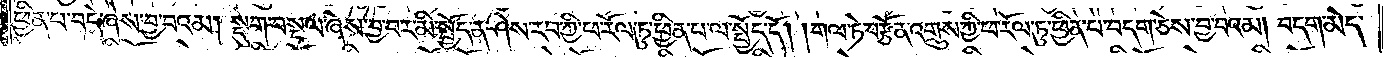ཕྱིན་པ་བདེ་ཞེས་བྱ་བའམ། སྡུག་བསྔལ་ཞེས་བྱ་བར་མི་སྤྱོད་ན་ཤེས་རབ་ཀྱི་ཕ་རོལ་ཏུ་ཕྱིན་པ་ལ་སྤྱོད་དོ། །གལ་ཏེ་བརྩོན་འགྲུས་ཀྱི་ཕ་རོལ་ཏུ་ཕྱིན་པ་བདག་ཅེས་བྱ་བའམ། བདག་མེད་
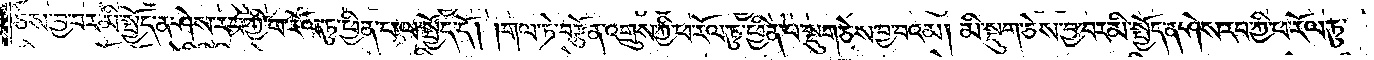ཅེས་བྱ་བར་མི་སྤྱོད་ན་ཤེས་རབ་ཀྱི་ཕ་རོལ་ཏུ་ཕྱིན་པ་ལ་སྤྱོད་དོ། །གལ་ཏེ་བརྩོན་འགྲུས་ཀྱི་ཕ་རོལ་ཏུ་ཕྱིན་པ་སྡུག་ཅེས་བྱ་བའམ། མི་སྡུག་ཅེས་བྱ་བར་མི་སྤྱོད་ན་ཤེས་རབ་ཀྱི་ཕ་རོལ་ཏུ་
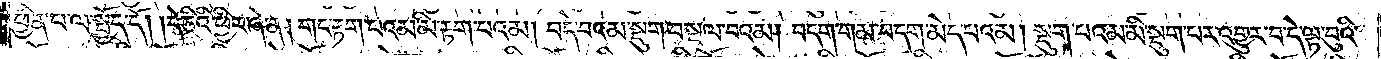ཕྱིན་པ་ལ་སྤྱོད་དོ། །དེ་ཅིའི་ཕྱིར་ཞེ་ན། གང་རྟག་པའམ་མི་རྟག་པའམ། བདེ་བའམ་སྡུག་བསྔལ་བའམ། བདག་གམ་བདག་མེད་པའམ། སྡུག་པའམ་མི་སྡུག་པར་འགྱུར་བ་དེ་ལྟ་བུའི་
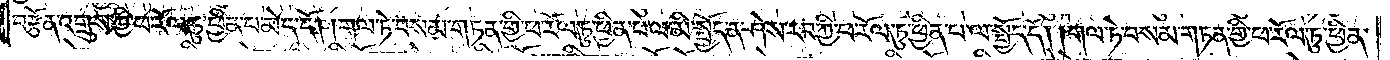བརྩོན་འགྲུས་ཀྱི་ཕ་རོལ་ཏུ་ཕྱིན་པ་མེད་དོ། །གལ་ཏེ་བསམ་གཏན་གྱི་ཕ་རོལ་ཏུ་ཕྱིན་པ་ལ་མི་སྤྱོད་ན་ཤེས་རབ་ཀྱི་ཕ་རོལ་ཏུ་ཕྱིན་པ་ལ་སྤྱོད་དོ། །གལ་ཏེ་བསམ་གཏན་གྱི་ཕ་རོལ་ཏུ་ཕྱིན་
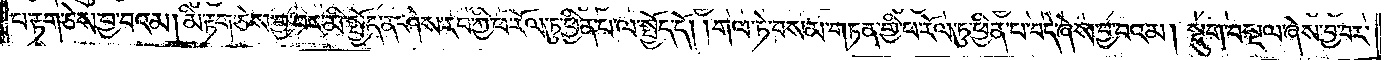པ་རྟག་ཅེས་བྱ་བའམ། མི་རྟག་ཅེས་བྱ་བར་མི་སྤྱོད་ན་ཤེས་རབ་ཀྱི་ཕ་རོལ་ཏུ་ཕྱིན་པ་ལ་སྤྱོད་དོ། །གལ་ཏེ་བསམ་གཏན་གྱི་ཕ་རོལ་ཏུ་ཕྱིན་པ་བདེ་ཞེས་བྱ་བའམ། སྡུག་བསྔལ་ཞེས་བྱ་བར་
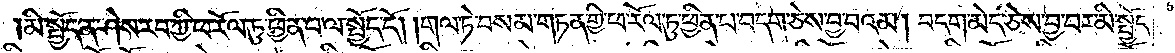མི་སྤྱོད་ན་ཤེས་རབ་ཀྱི་ཕ་རོལ་ཏུ་ཕྱིན་པ་ལ་སྤྱོད་དོ། །གལ་ཏེ་བསམ་གཏན་གྱི་ཕ་རོལ་ཏུ་ཕྱིན་པ་བདག་ཅེས་བྱ་བའམ། བདག་མེད་ཅེས་བྱ་བར་མི་སྤྱོད་
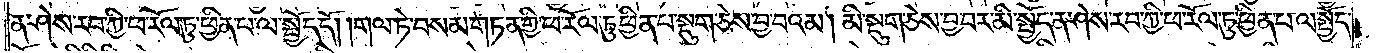ན་ཤེས་རབ་ཀྱི་ཕ་རོལ་ཏུ་ཕྱིན་པ་ལ་སྤྱོད་དོ། །གལ་ཏེ་བསམ་གཏན་གྱི་ཕ་རོལ་ཏུ་ཕྱིན་པ་སྡུག་ཅེས་བྱ་བའམ། མི་སྡུག་ཅེས་བྱ་བར་མི་སྤྱོད་ན་ཤེས་རབ་ཀྱི་ཕ་རོལ་ཏུ་ཕྱིན་པ་ལ་སྤྱོད་
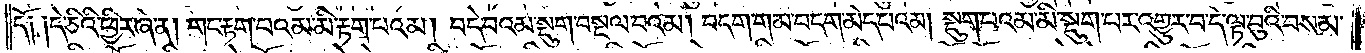དོ༑ ༑དེ་ཅིའི་ཕྱིར་ཞེ་ན། གང་རྟག་པའམ་མི་རྟག་པའམ། བདེ་བའམ་སྡུག་བསྔལ་བའམ། བདག་གམ་བདག་མེད་པའམ། སྡུག་པའམ་མི་སྡུག་པར་འགྱུར་བ་དེ་ལྟ་བུའི་བསམ་
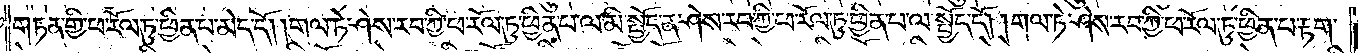གཏན་གྱི་ཕ་རོལ་ཏུ་ཕྱིན་པ་མེད་དོ། །གལ་ཏེ་ཤེས་རབ་ཀྱི་ཕ་རོལ་ཏུ་ཕྱིན་པ་ལ་མི་སྤྱོད་ན་ཤེས་རབ་ཀྱི་ཕ་རོལ་ཏུ་ཕྱིན་པ་ལ་སྤྱོད་དོ། །གལ་ཏེ་ཤེས་རབ་ཀྱི་ཕ་རོལ་ཏུ་ཕྱིན་པ་རྟག་
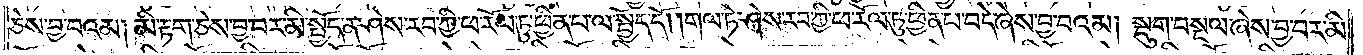ཅེས་བྱ་བའམ། མི་རྟག་ཅེས་བྱ་བར་མི་སྤྱོད་ན་ཤེས་རབ་ཀྱི་ཕ་རོལ་ཏུ་ཕྱིན་པ་ལ་སྤྱོད་དོ། །གལ་ཏེ་ཤེས་རབ་ཀྱི་ཕ་རོལ་ཏུ་ཕྱིན་པ་བདེ་ཞེས་བྱ་བའམ། སྡུག་བསྔལ་ཞེས་བྱ་བར་མི་
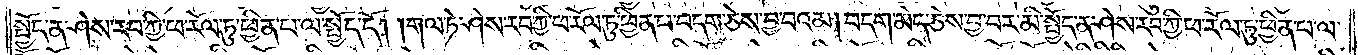སྤྱོད་ན་ཤེས་རབ་ཀྱི་ཕ་རོལ་ཏུ་ཕྱིན་པ་ལ་སྤྱོད་དོ། །གལ་ཏེ་ཤེས་རབ་ཀྱི་ཕ་རོལ་ཏུ་ཕྱིན་པ་བདག་ཅེས་བྱ་བའམ། བདག་མེད་ཅེས་བྱ་བར་མི་སྤྱོད་ན་ཤེས་རབ་ཀྱི་ཕ་རོལ་ཏུ་ཕྱིན་པ་ལ་
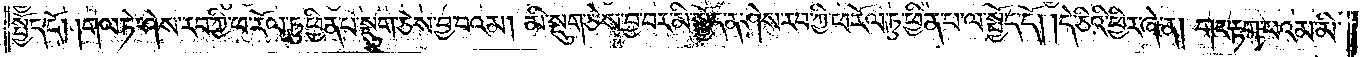སྤྱོད་དོ། །གལ་ཏེ་ཤེས་རབ་ཀྱི་ཕ་རོལ་ཏུ་ཕྱིན་པ་སྡུག་ཅེས་བྱ་བའམ། མི་སྡུག་ཅེས་བྱ་བར་མི་སྤྱོད་ན་ཤེས་རབ་ཀྱི་ཕ་རོལ་ཏུ་ཕྱིན་པ་ལ་སྤྱོད་དོ། །དེ་ཅིའི་ཕྱིར་ཞེ་ན། གང་རྟག་པའམ་མ་
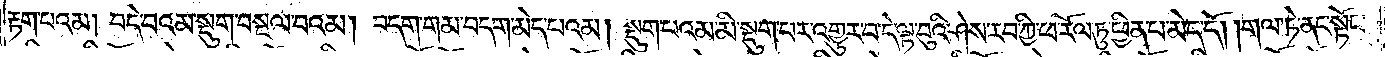རྟག་པའམ། བདེ་བའམ་སྡུག་བསྔལ་བའམ། བདག་གམ་བདག་མེད་པའམ། སྡུག་པའམ་མི་སྡུག་པར་འགྱུར་པ་དེ་ལྟ་བུའི་ཤེས་རབ་ཀྱི་ཕ་རོལ་ཏུ་ཕྱིན་པ་མེད་དོ། །གལ་ཏེ་ནང་སྟོང་
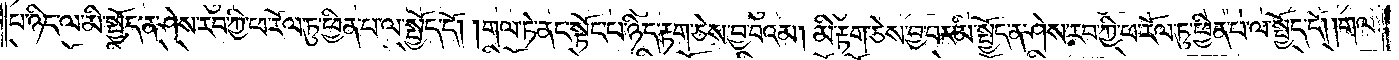པ་ཉིད་ལ་མི་སྤྱོད་ན་ཤེས་རབ་ཀྱི་ཕ་རོལ་ཏུ་ཕྱིན་པ་ལ་སྤྱོད་དོ། །གལ་ཏེ་ནང་སྟོང་པ་ཉིད་རྟག་ཅེས་བྱ་བའམ། མི་རྟག་ཅེས་བྱ་བར་མི་སྤྱོད་ན་ཤེས་རབ་ཀྱི་ཕ་རོལ་ཏུ་ཕྱིན་པ་ལ་སྤྱོད་དོ། །གལ་
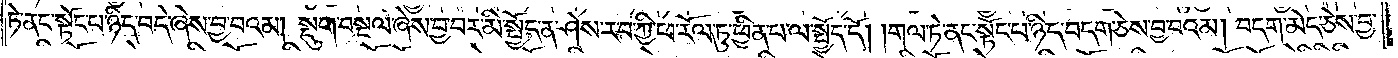ཏེ་ནང་སྟོང་པ་ཉིད་བདེ་ཞེས་བྱ་བའམ། སྡུག་བསྔལ་ཞེས་བྱ་བར་མི་སྤྱོད་ན་ཤེས་རབ་ཀྱི་ཕ་རོལ་ཏུ་ཕྱིན་པ་ལ་སྤྱོད་དོ། །གལ་ཏེ་ནང་སྟོང་པ་ཉིད་བདག་ཅེས་བྱ་བའམ། བདག་མེད་ཅེས་བྱ་
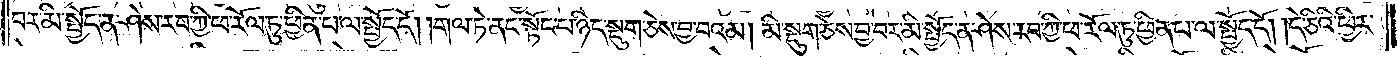བར་མི་སྤྱོད་ན་ཤེས་རབ་ཀྱི་ཕ་རོལ་ཏུ་ཕྱིན་པ་ལ་སྤྱོད་དོ། །གལ་ཏེ་ནང་སྟོང་པ་ཉིད་སྡུག་ཅེས་བྱ་བའམ། མི་སྡུག་ཅེས་བྱ་བར་མི་སྤྱོད་ན་ཤེས་རབ་ཀྱི་ཕ་རོལ་ཏུ་ཕྱིན་པ་ལ་སྤྱོད་དོ། །དེ་ཅིའི་ཕྱིར་
